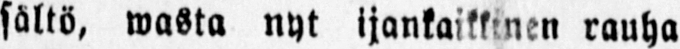sältö, wasta nyt ijankaikkinen rauha
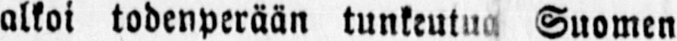alkoi todenperään tunkeutua Suomen
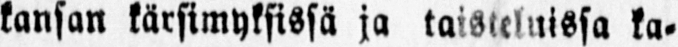kansan kärsimyksissä ja taisteluissa ka-
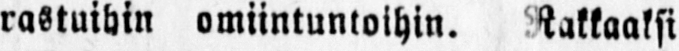rastuihin omiintuntoihin. Rakkaaksi
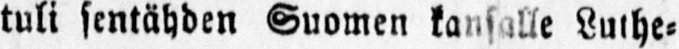tuli sentähden Suomen kansalle Luthe-
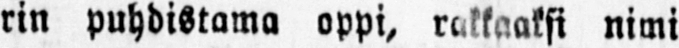rin puhdistama oppi, rakkaaksi nimi
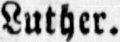Luther.
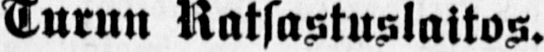Turun Ratsastuslaitos.
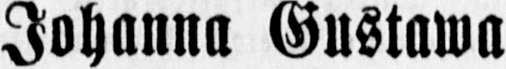Johanna Gustawa
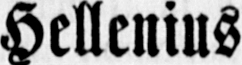Hellenius
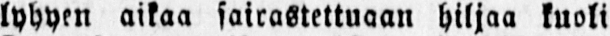lyhyen aikaa sairastettuaan hiljaa kuoli
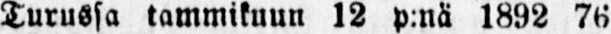Turussa tammikuun 12 p:nä 1892 76
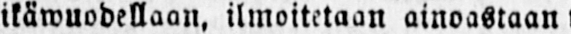ikäwuodellaan, ilmoitetaan ainoastaan tä-
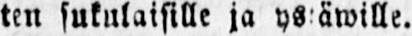ten sukulaisille ja ys: äwille.
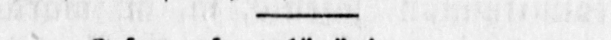-
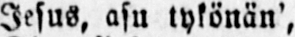Jesus, asu tykönän',
